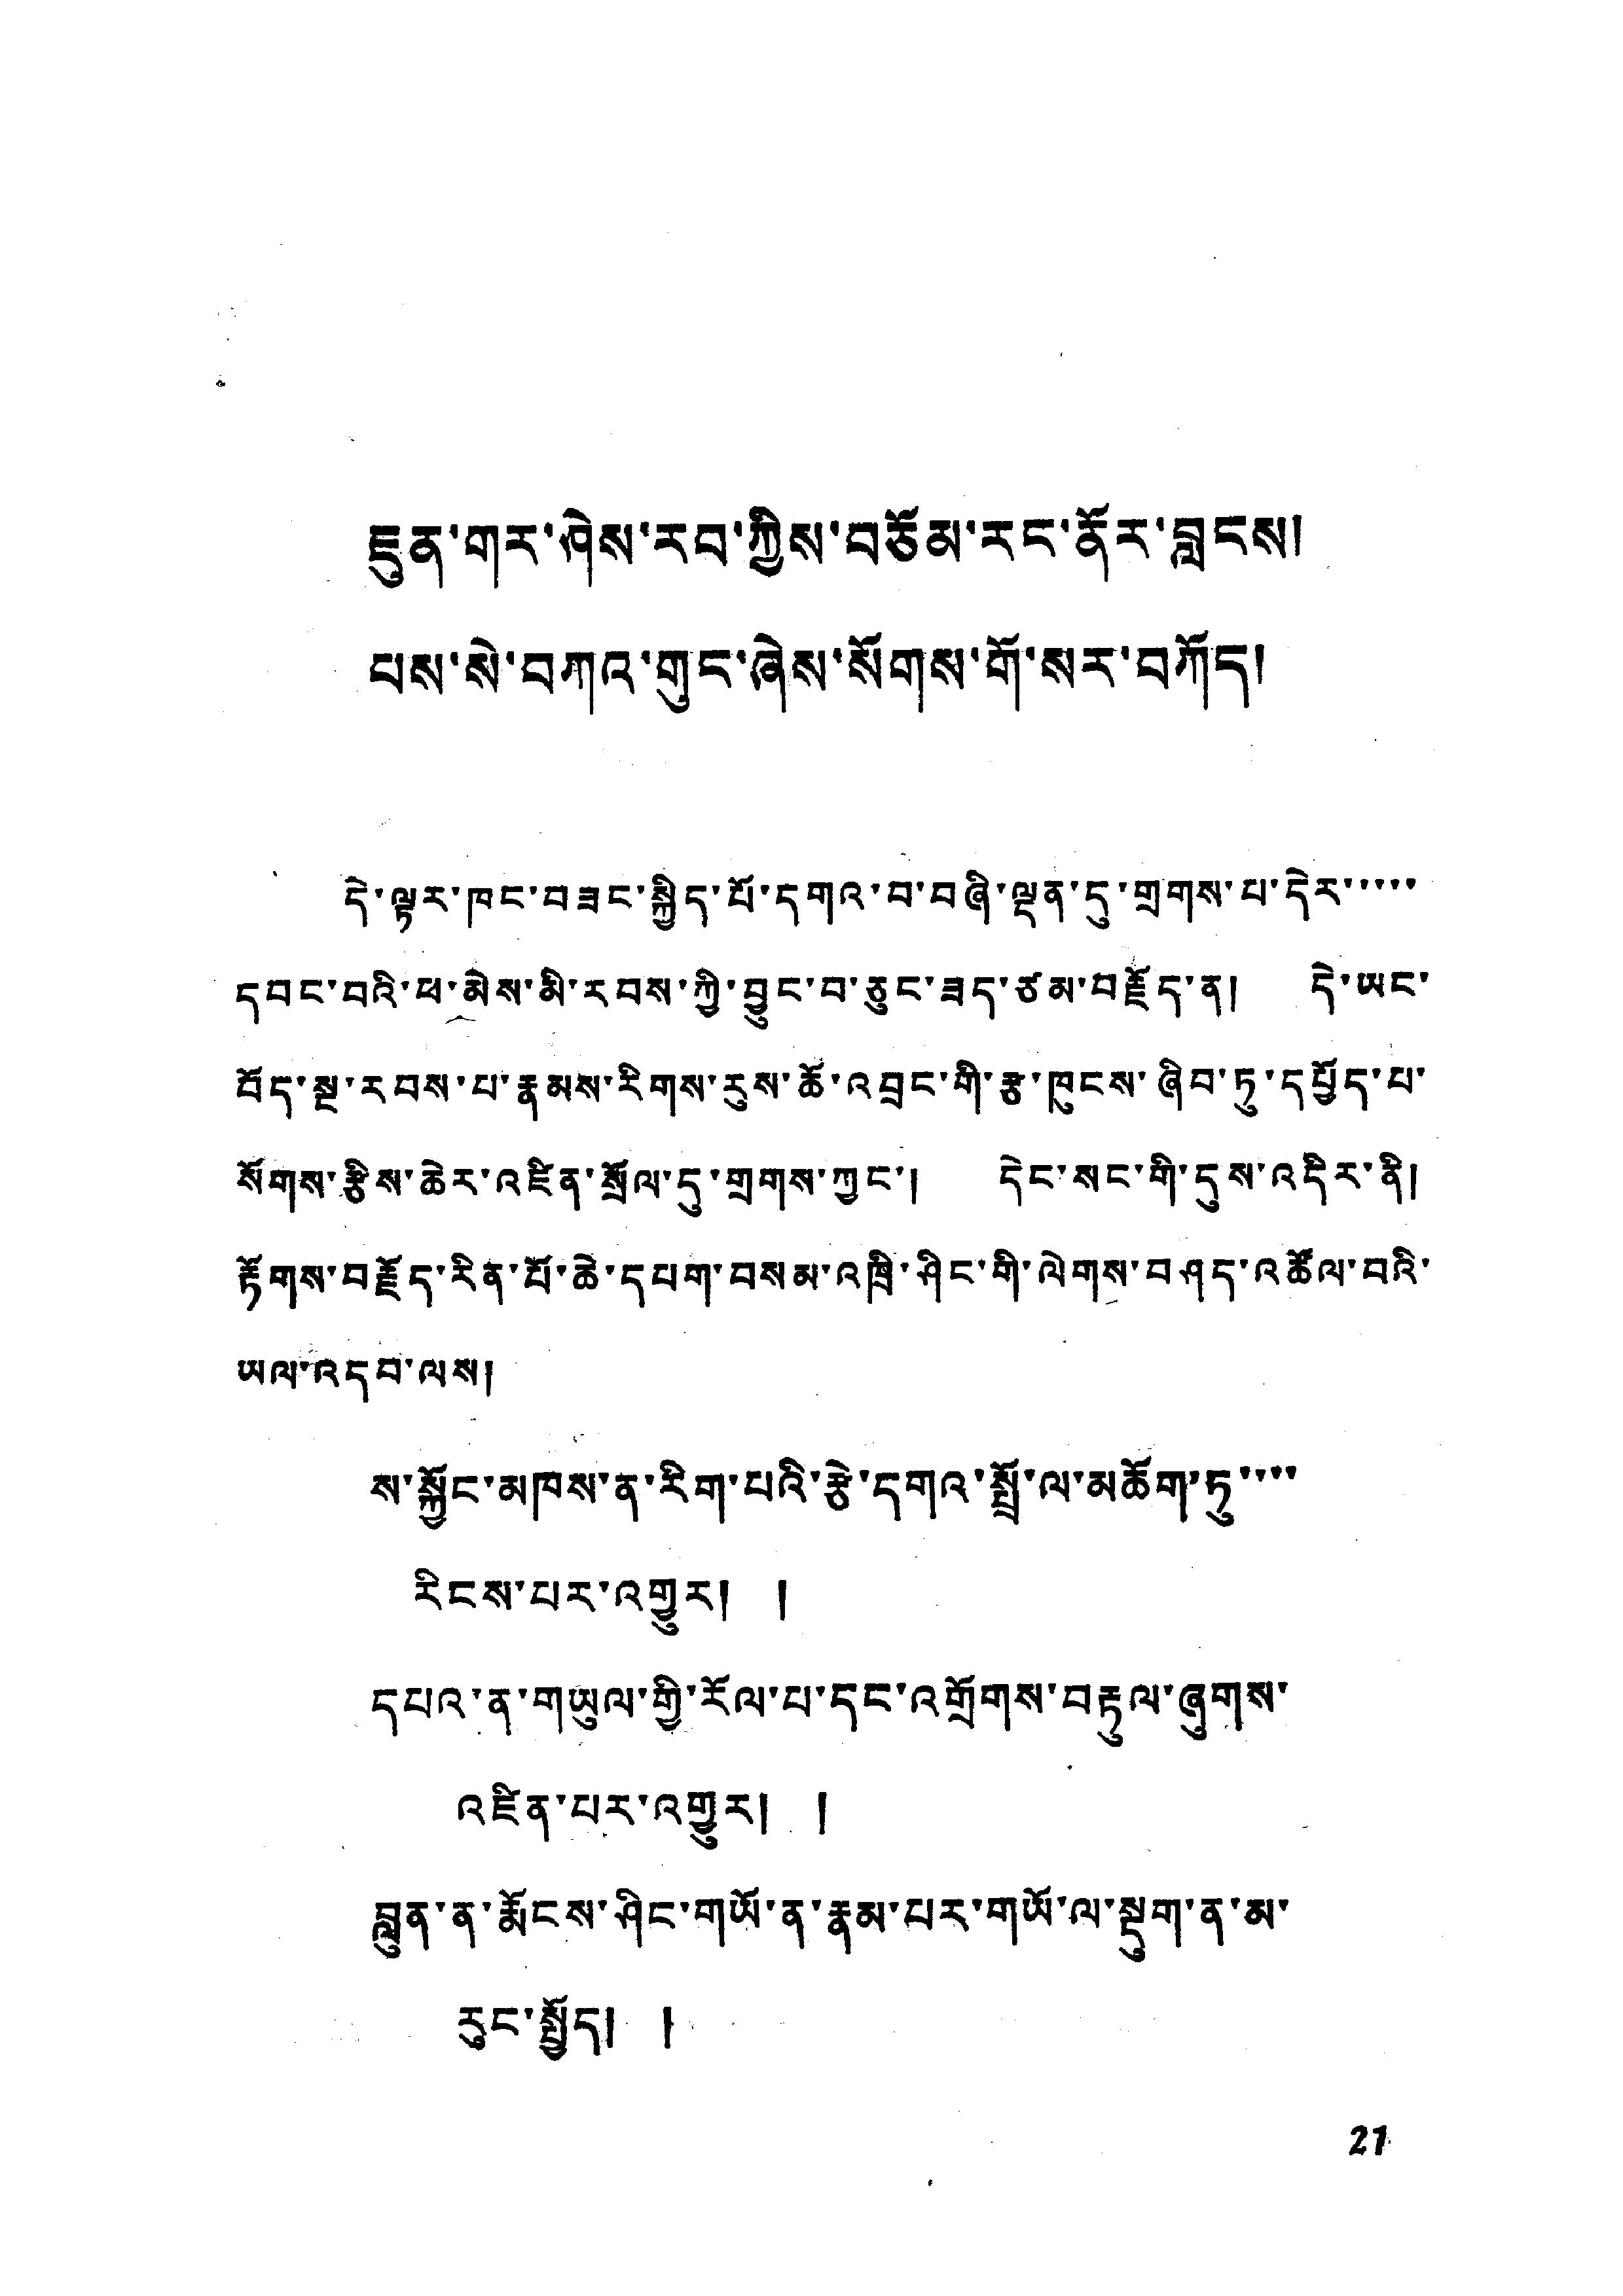ཇུན་གར་ཤེས་རབ་ཀྱིས་བཅོམ་རང་ནོར་བླངས།
པས་སེ་བཀའ་གུང་ཞེས་སོགས་གོ་སར་བཀོད།
དེ་ལྟར་ཁང་བཟང་སྐྱིད་པོ་དགའ་བ་བཞི་ལྡན་དུ་གྲགས་པ་དེར་་་་་
དབང་བའི་ཕ་མེས་མི་རབས་ཀྱི་བྱུང་བ་ཅུང་ཟད་ཙམ་བརྗོད་ན། དེ་ཡང་
བོད་སྔ་རབས་པ་རྣམས་རིགས་རུས་ཆོ་འབྲང་གི་རྩ་ཁུངས་ཞིབ་ཏུ་དཔྱོད་པ་
སོགས་རྩིས་ཆེར་འཛིན་སྲོལ་དུ་གྲགས་ཀྱང་། དེང་སང་གི་དུས་འདིར་ནི།
རྟོགས་བརྗོད་རིན་པོ་ཆེ་དཔག་བསམ་འཁྲི་ཤིང་གི་ལེགས་བཤད་འཚོལ་བའི་
ཡལ་འདབ་ལས།
ས་སྐྱོང་མཁས་ན་རིག་པའི་རྩེ་དགའ་སྤྲོ་ལ་མཆོག་ཏུ་་་་
རིངས་པར་འགྱུར། །
དཔའ་ན་གཡུལ་གྱི་རོལ་པ་དང་འགྲོགས་བརྟུལ་ཞུགས་
འཛིན་པར་འགྱུར། །
བླུན་ན་རྨོངས་ཤིང་གཡོ་ན་རྣམ་པར་གཡོ་ལ་སྡུག་ན་མ་
རུང་སྤྱོད། །
21
